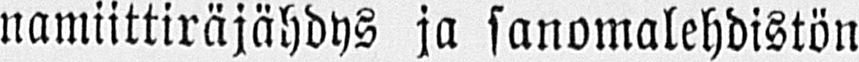namiittiräjähdys ja sanomalehdistön
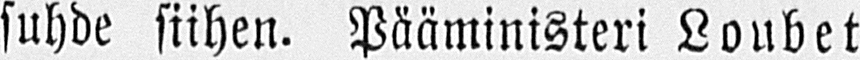suhde siihen. Pääministeri Loubet
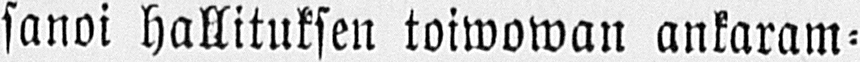sanoi hallituksen toiwowan ankaram-
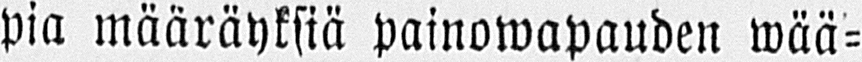pia määräyksiä painowapauden wää-
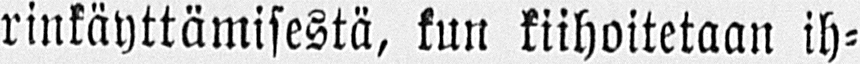rinkäyttämisestä, kun kiihoitetaan ih-
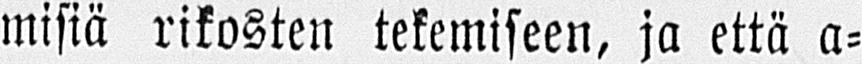misiä rikosten tekemiseen, ja että a-
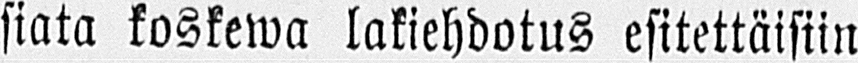siata koskewa lakiehdotus esitettäisiin
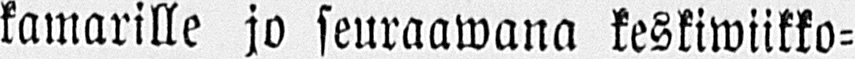kamarille jo seuraawana keskiwiikko-
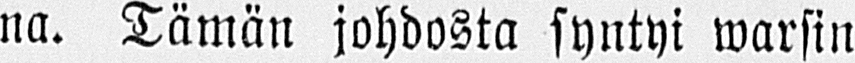na. Tämän johdosta syntyi warsin
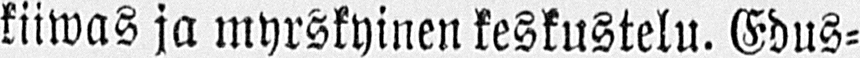kiiwas ja myrskyinen keskustelu. Edus-
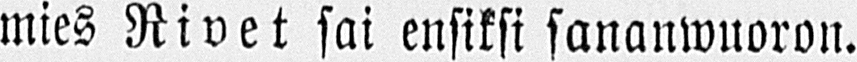mies Rivet sai ensiksi sananwuoron.
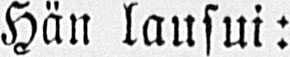Hän lausui:
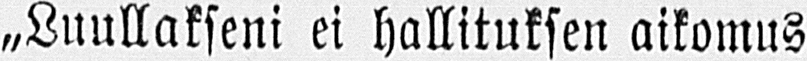„Luullakseni ei hallituksen aikomus
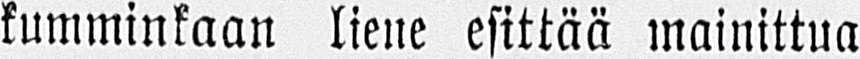kumminkaan liene esittää mainittua
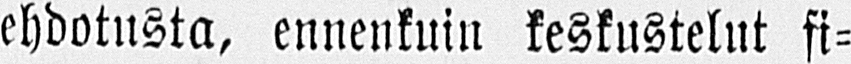ehdotusta, ennenkuin keskustelut fi-
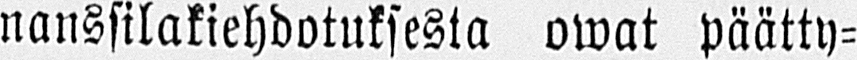nanssilakiehdotuksesta owat päätty-
